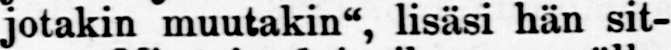jotakin muutakin", lisäsi hän sit-
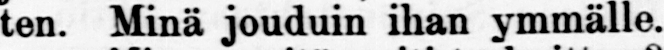ten. Minä jouduin ihan ymmälle.
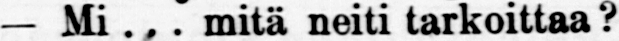— Mi ... mitä neiti tarkoittaa?
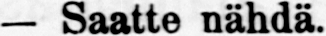— Saatte nähdä.
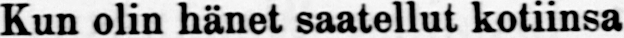Kun olin hänet saatellut kotiinsa
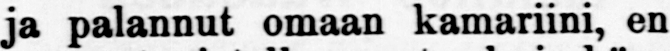ja palannut omaan kamariini, en
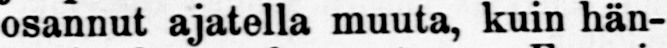osannut ajatella muuta, kuin hän-
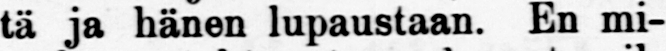tä ja hänen lupaustaan. En mi-
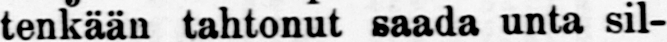tenkään tahtonut saada unta sil-
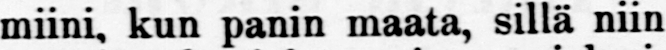miini, kun panin maata, sillä niin
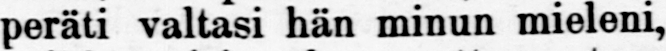peräti valtasi hän minun mieleni,
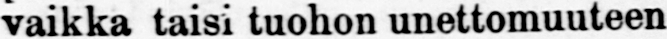vaikka taisi tuohon unettomuuteen
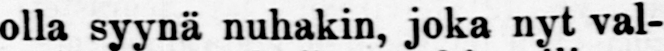olla syynä nuhakin, joka nyt val-
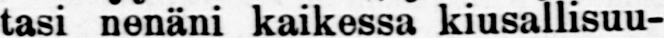tasi nenäni kaikessa kiusallisuu-
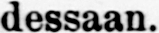dessaan.
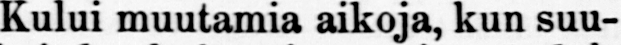Kului muutamia aikoja, kun suu-
